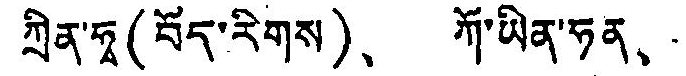ཀྲིན་ཧྭ（བོད་རིགས）、 ཀོ་ཡིན་ཧན、
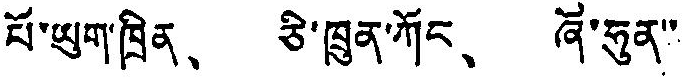པོ་ཡུག་ཁྲིན、 ཅི་ཁྲུན་ཀོང、 ཞོ་ཧུན་་
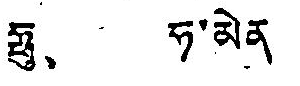ཧྥུ、 ཧ་མེན
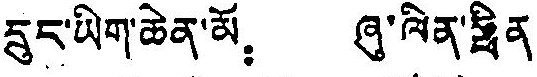དྲུང་ཡིག་ཆེན་མོ： ཞུ་ལིན་ཧྥིན
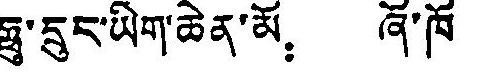ཧྥུ་དྲུང་ཡིག་ཆེན་མོ： ཞོ་ཁོ
